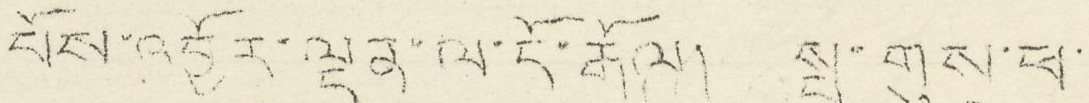པོས་འབྱོར་ལྡན་ལ་ངོ་རྒོལ། སྤུ་གུས་ཕ་
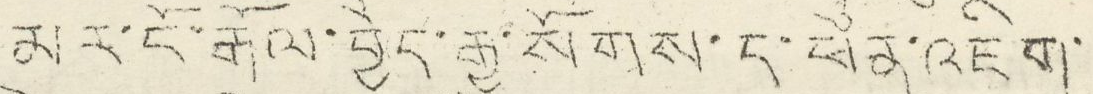མར་ངོ་རྒོལ་བྱེད་རྒྱུ་སོགས་ད་ཕོན་འཇིག་
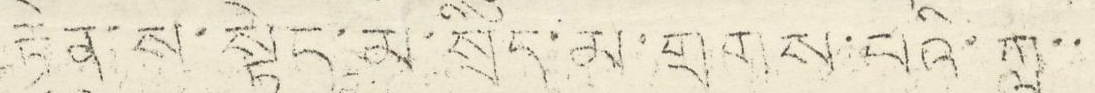རྟེན་ས་སྟེང་མ་སྲིད་མ་གྲགས་པའི་ཀླ་་
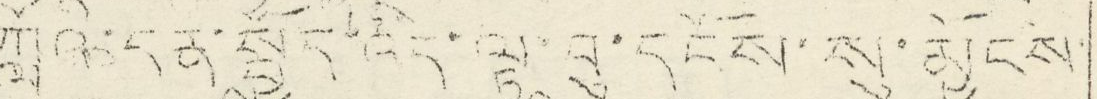ཀློའི་དན་སྤྱོདའདི་ལྟ་བུ་དངོས་སུ་མྱོངས་
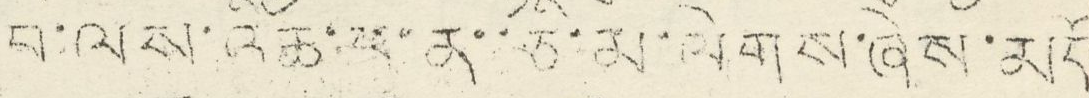བ་ལས་འཆི་བ་ན་ཅི་མ་ལེགས་ཞེས་མདོ
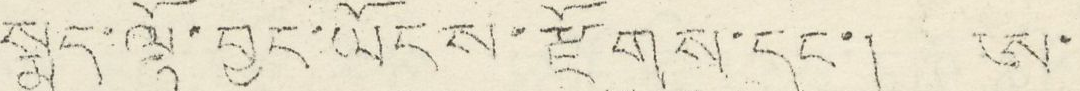སྨད་ལྟོ་བྱང་ཡོངས་རྫོགས་དང་། ཨ་
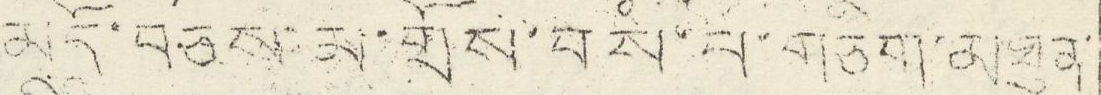མདོ་བཅས་མ་གྲོས་བསཾ་པ་གཅིག་མཐུན་
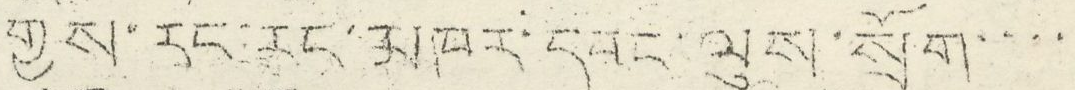གྱིས་རང་རང་མཁར་དབང་ལུས་སྲོག་་་་
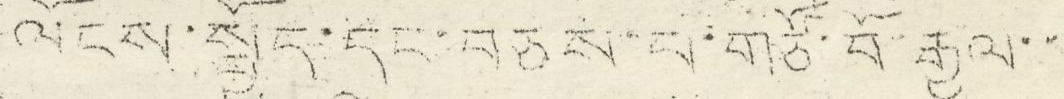ལོངས་སྤྱོད་དང་བཅས་པ་གཙོ་བོ་རྒྱལ་་
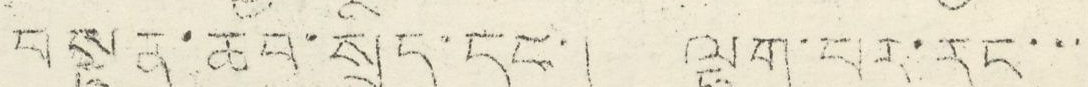བསྟན་ཆབ་སྲིད་དང་། ལྷག་པར་རང་་་
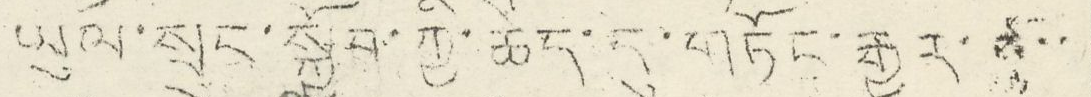ཡུལ་སྲུང་སྐྱོབ་ཀྱི་ཆེད་དུ་གཏོང་རྒྱུར་་་་
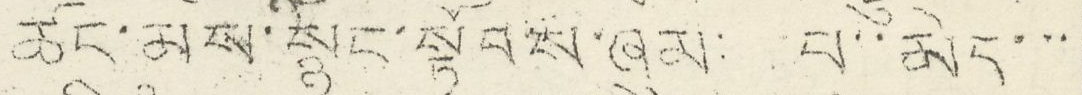ཚང་མས་སྙིང་སྟོབས་ཞུམ་ པ་་མེད་་་
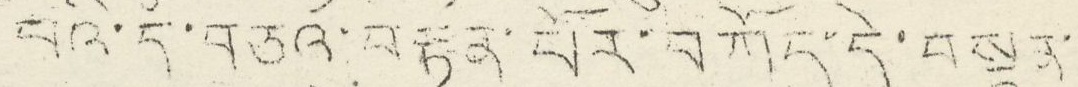པའི་དཾ་བཅའ་བརྟན་པོར་བཀོད་དེ་བསྟན་
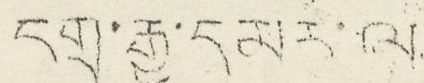དགྲ་རྒྱ་དམར་ལ་
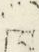ཁ་
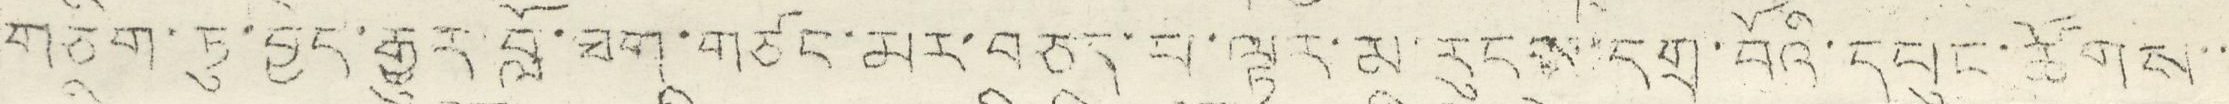གཅིག་ཏུ་བྱེད་རྒྱུར་བློ་ཐག་གཙང་མར་བཅད་པ་ལྟར་མ་རུངས་དགྲ་བོའི་དཔུང་ཚོགས་་
